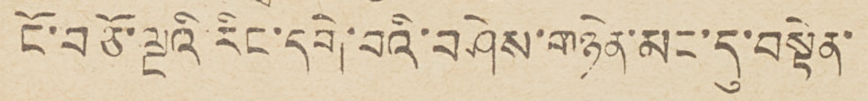ངོ་བཅོ་ལྔའི་རིང་དགེ་བའི་བཤེས་གཉེན་མང་དུ་བསྟེན་
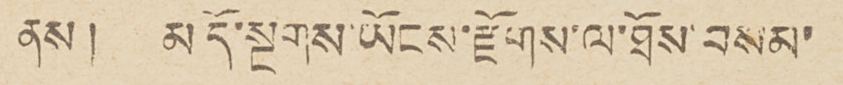ནས། མདོ་སྔགས་ཡོངས་རྫོགས་ལ་ཐོས་བསམ་
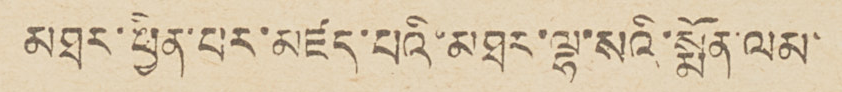མཐར་ཕྱིན་པར་མཛད་པའི་མཐར་ལྷ་སའི་སྨོན་ལམ་
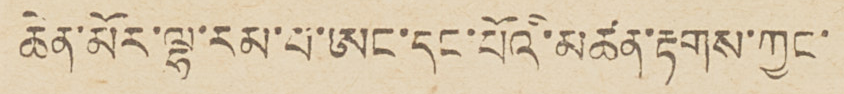ཆེན་མོར་ལྷ་རམ་པ་ཨང་དང་པོའི་མཚན་རྟགས་ཀྱང་
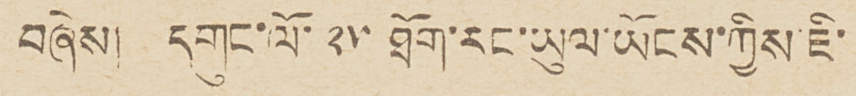བཞེས། དགུང་ལོ་ ༢༥ ཐོག་རང་ཡུལ་ཡོངས་ཀྱིས་ཇི་
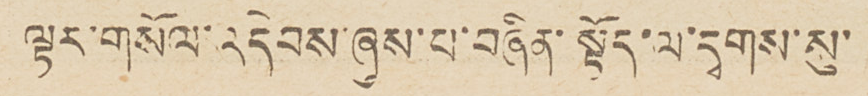ལྟར་གསོལ་འདེབས་ཞུས་པ་བཞིན་སྟོད་ལ་དྭགས་སུ་
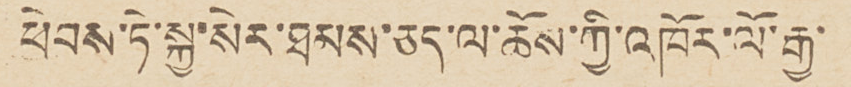ཕེབས་ཏེ་སྐྱ་སེར་ཐམས་ཅད་ལ་ཆོས་ཀྱི་འཁོར་ལོ་རྒྱ་
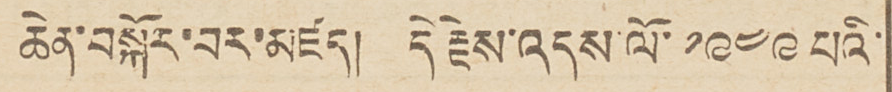ཆེན་བསྐོར་བར་མཛད། དེ རྗེས་འདས་ལོ་ ༡༩༤༩ པའི་
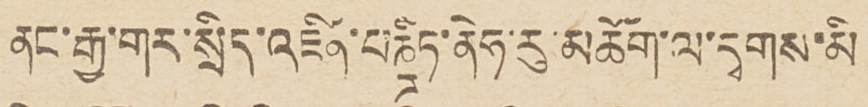ནང་རྒྱ་གར་སྲིད་འཛིན་པཎྜིཏ་ནེཧ་རུ་མཆོག་ལ་དྭགས་མི
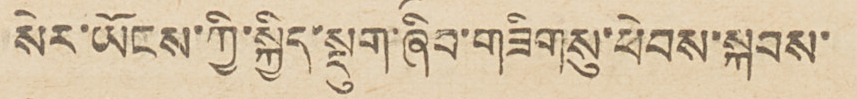སེར་ཡོངས་ཀྱི་སྐྱིད་སྡུག་ཞིབ་གཟིགསུ་ཕེབས་སྐབས་
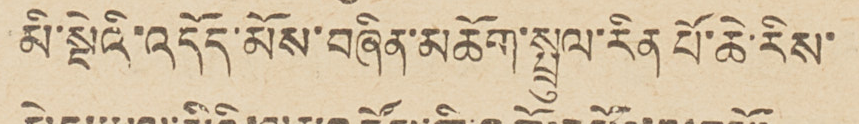མི་སྡེའི་འདོད་མོས་བཞིན་མཆོག་སྤྲུལ་རིན པོ་ཆེ་རིས་
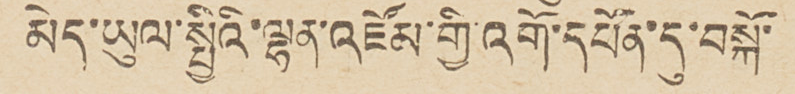མེད་ཡུལ་སྤྱིའི་ལྷན་འཛོམ་གྱི་འགོ་དཔོན་དུ་བསྐོ་
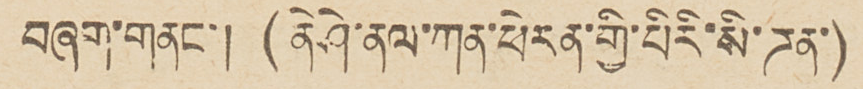བཞག་གནང་། (ནེཤེ་ནལ་ཀན་ཕེརན་གྱི་པིརི་སི་ཌན་)
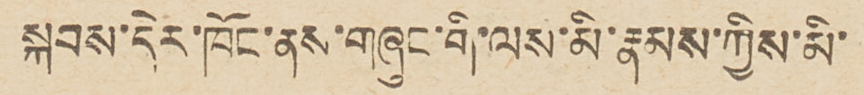སྐབས་དེར་ཁོང་ནས་གཞུང་གི་ལས་མི་རྣམས་ཀྱིས་མི་
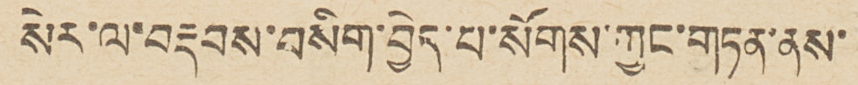སེར་ལ་བརྡབས་བསིག་བྱེད་པ་སོགས་ཀྱང་གཏན་ནས་
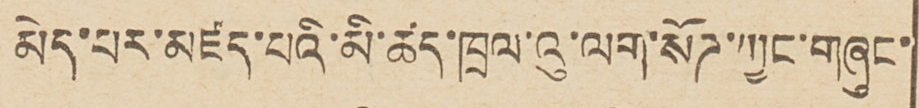མེད་པར་མཛད་པའི་མི་ཚད་ཁྲལ་འུ་ལག་སོཌ་ཀྱང་གཞུང་
